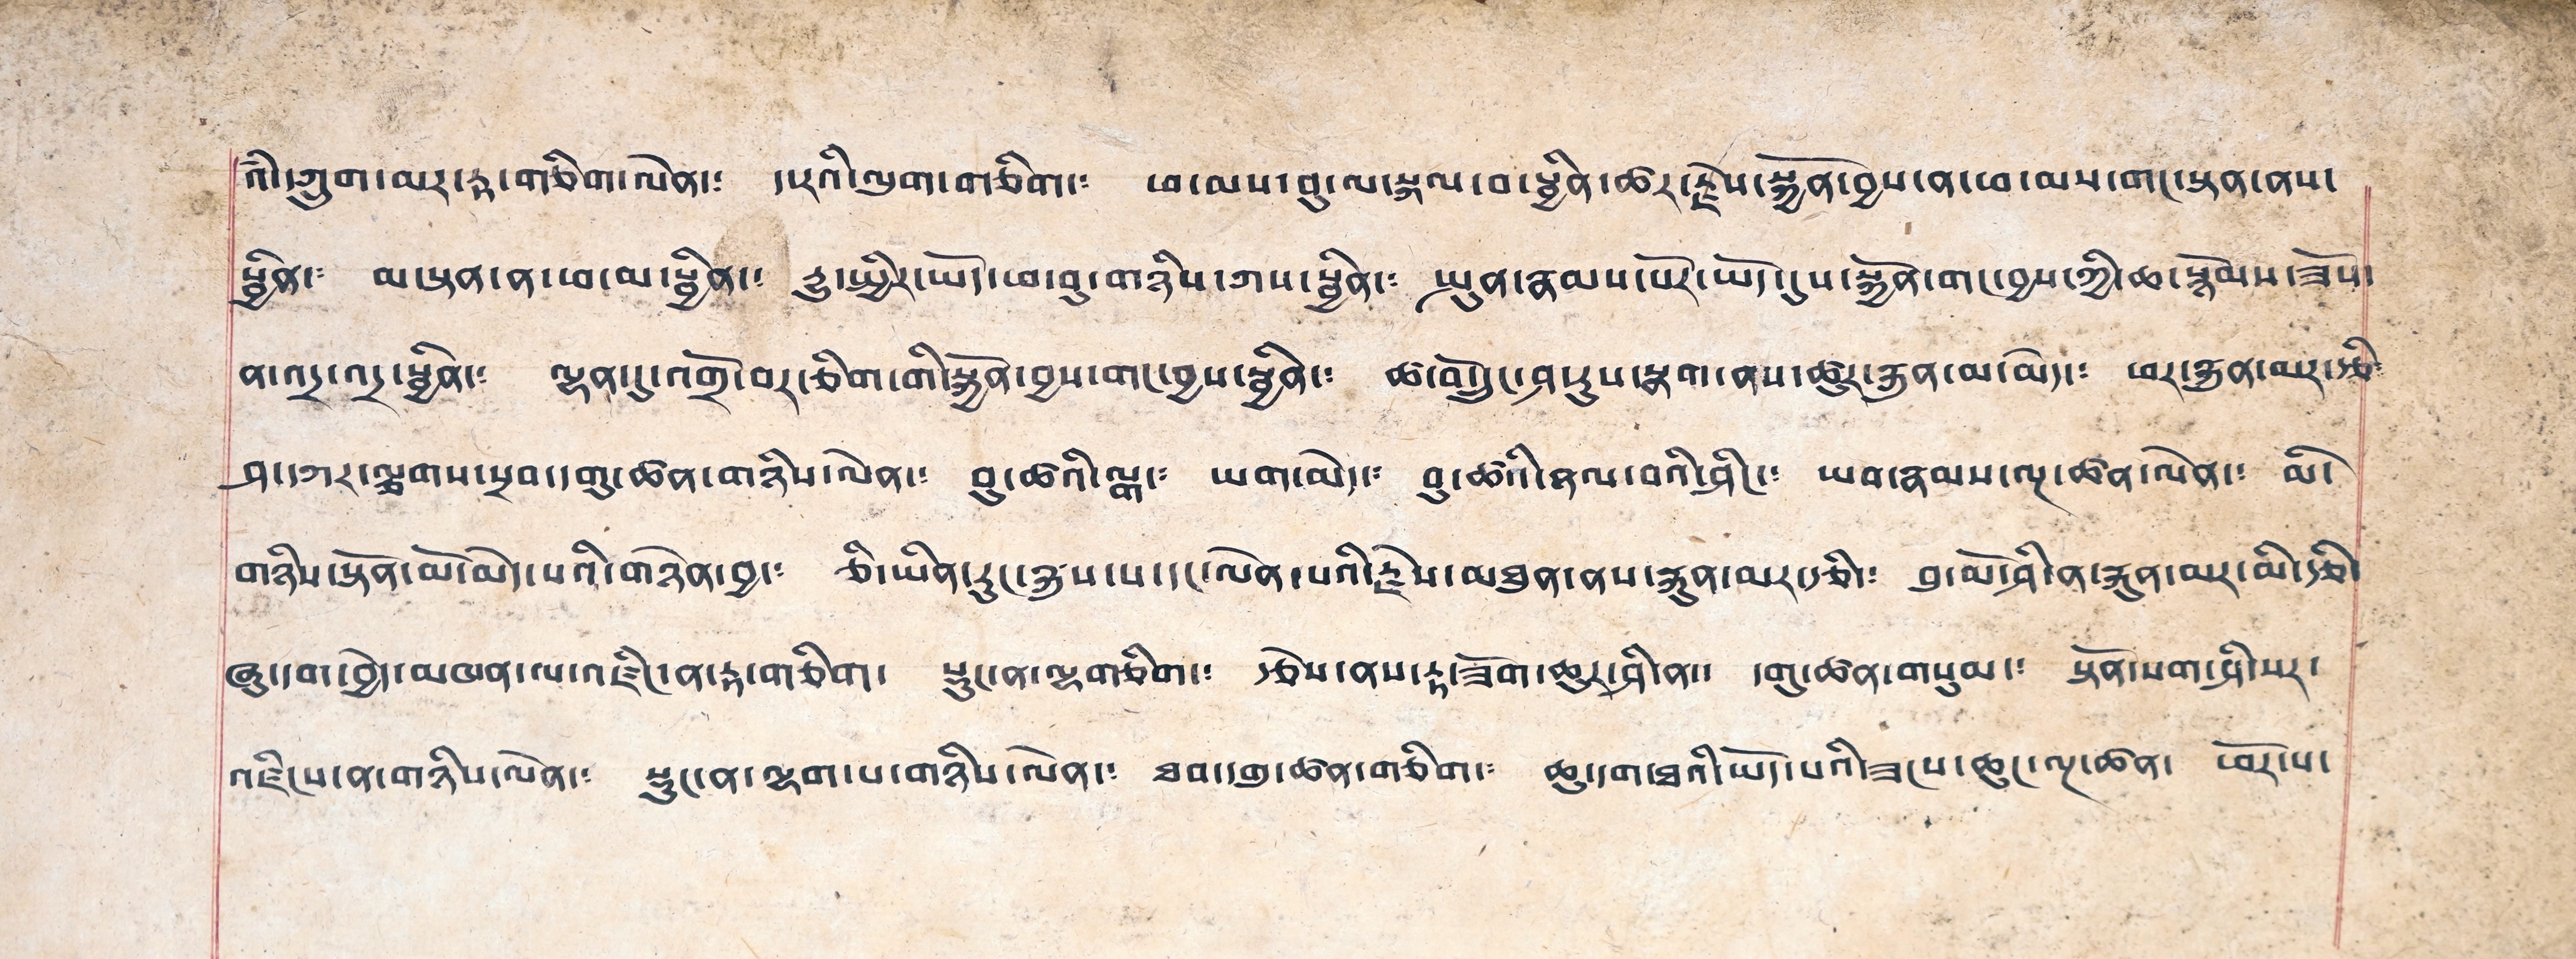འཾ་ཀྲུག་མར་རྟ་གཅིག་ལེན་༴ ད་རའི་ལུག་གཅིག་༴ ཕ་མས་བུ་ལ་སྐལ་བ་སྦྱིན་ཚར་རྗེས་སྐྱོན་བྱས་ན་ཕ་མས་གང་སྟན་ནས་
སྦྱིན་༴ མ་སྟན་ན་ཕ་མ་སྦྱིན་༴ རྒྱུ་ཕྱིར་ཡོད་ཕ་བུ་གཉིས་ཀས་སྦྱིན་༴ སྤུན་རྣམས་པོར་ཡོད་དུས་སྐྱོན་གང་བྱས་ཀྱི་ཆ་སྙོམས་ཟོས་
ན་འདྲ་འདྲ་སྦྱིན་༴ ལྷན་དུ་འགྲོ་བར་ཅིག་གི་སྐྱོན་བྱས་གང་བྱས་སྦྱིན་༴ ཚ་བོ་དྲུང་ཤ་རུས་སྣག་ནས་ཚུར་རྐུན་མ་མེད་༴ ཕར་རྐུན་མར་རྩི༴
ཤ་དཀར་ལྕགས་སྲབ་དགུ་ཚན་གཉིས་ལེན་༴ བུ་ཚའི་ལྒ་༴ ཡག་མེད་༴ བུ་ཚའི་ཉལ་བའི་ཤིང་༴ ཡབ་རྣམས་ལྔ་ཚན་ལེན་༴ མི་
གཉིས་སྟོན་མོ་མེད་པའི་གཉེན་བྱ་༴ ཅི་ཡིན་རུང་རྐུས་པ་དང་ལེན་པའི་རྗེས་མཐུན་ནས་རྐུན་མར་རྩི་༴ བུ་མོ་ཤི་ན་རྐུན་མར་མི་རྩི་
ཞུ་དག་བྱེད་མཁན་ལ་འཛིང་ན་རྟ་གཅིག། སྟུང་ན་ལྷགཅིག་༴ རྩེས་ནས་རྟ་ཟོག་ཆུར་ཤི་ན་༴ དགུ་ཚན་གསུམ་༴ སྟོན་པག་ཤི་པར་
འཛིངས་ན་གཉིས་ལེན་༴ སྟུང་ན་ལྷག་པ་གཉིས་ལེན་༴ ཐབ་དགུ་ཚན་གཅིག་༴ ཆུ་དག་ཐའི་ཡོད་པའི་ཟངས་ཆུང་ལྔ་ཚན་ ཕོར་པ་
